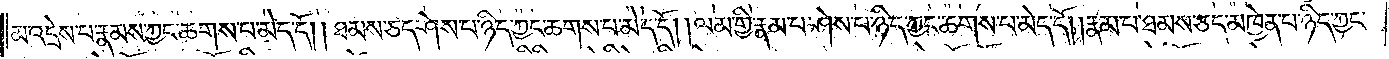མ་འདྲེས་པ་རྣམས་ཀྱང་ཆགས་པ་མེད་དོ། །ཐམས་ཅད་ཤེས་པ་ཉིད་ཀྱང་ཆགས་པ་མེད་དོ། །ལམ་གྱི་རྣམ་པར་ཤེས་པ་ཉིད་ཀྱང་ཆགས་པ་མེད་དོ། །རྣམ་པ་ཐམས་ཅད་མཁྱེན་པ་ཉིད་ཀྱང་
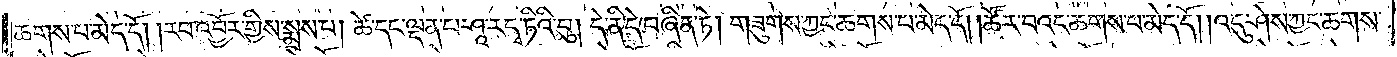ཆགས་པ་མེད་དོ། །རབ་འབྱོར་གྱིས་སྨྲས་པ། ཚེ་དང་ལྡན་པ་ཤཱ་ར་དྭ་ཏིའི་བུ། དེ་ནི་དེ་བཞིན་ཏེ། གཟུགས་ཀྱང་ཆགས་པ་མེད་དོ། །ཚོར་བའང་ཆགས་པ་མེད་དོ། །འདུ་ཤེས་ཀྱང་ཆགས་
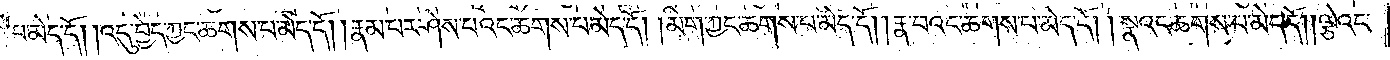པ་མེད་དོ། །འདུ་བྱེད་ཀྱང་ཆགས་པ་མེད་དོ། །རྣམ་པར་ཤེས་པའང་ཆགས་པ་མེད་དོ། །མིག་ཀྱང་ཆགས་པ་མེད་དོ། །རྣ་བའང་ཆགས་པ་མེད་དོ། །སྣའང་ཆགས་པ་མེད་དོ། །ལྕེའང་
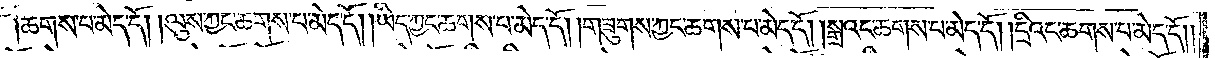ཆགས་པ་མེད་དོ། །ལུས་ཀྱང་ཆགས་པ་མེད་དོ། །ཡིད་ཀྱང་ཆགས་པ་མེད་དོ། །གཟུགས་ཀྱང་ཆགས་པ་མེད་དོ། །སྒྲའང་ཆགས་པ་མེད་དོ། །དྲིའང་ཆགས་པ་མེད་དོ། །
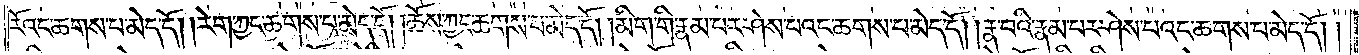རོའང་ཆགས་པ་མེད་དོ། །རེག་ཀྱང་ཆགས་པ་མེད་དོ། །ཆོས་ཀྱང་ཆགས་པ་མེད་དོ། །མིག་གི་རྣམ་པར་ཤེས་པའང་ཆགས་པ་མེད་དོ། །རྣ་བའི་རྣམ་པར་ཤེས་པའང་ཆགས་པ་མེད་དོ། །
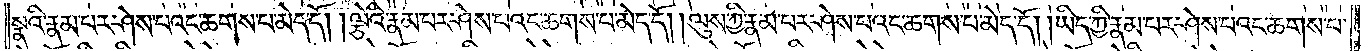སྣའི་རྣམ་པར་ཤེས་པའང་ཆགས་པ་མེད་དོ། །ལྕེའི་རྣམ་པར་ཤེས་པའང་ཆགས་པ་མེད་དོ། །ལུས་ཀྱི་རྣམ་པར་ཤེས་པའང་ཆགས་པ་མེད་དོ། །ཡིད་ཀྱི་རྣམ་པར་ཤེས་པའང་ཆགས་པ་
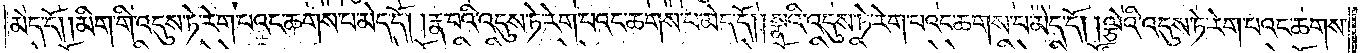མེད་དོ། །མིག་གི་འདུས་ཏེ་རེག་པའང་ཆགས་པ་མེད་དོ། །རྣ་བའི་འདུས་ཏེ་རེག་པའང་ཆགས་པ་མེད་དོ། །སྣའི་འདུས་ཏེ་རེག་པའང་ཆགས་པ་མེད་དོ། །ལྕེའི་འདུས་ཏེ་རེག་པའང་ཆགས་
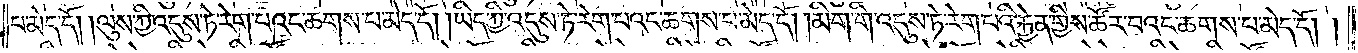པ་མེད་དོ། །ལུས་ཀྱི་འདུས་ཏེ་རེག་པའང་ཆགས་པ་མེད་དོ། །ཡིད་ཀྱི་འདུས་ཏེ་རེག་པའང་ཆགས་པ་མེད་དོ། །མིག་གི་འདུས་ཏེ་རེག་པའི་རྐྱེན་གྱིས་ཚོར་བའང་ཆགས་པ་མེད་དོ། །
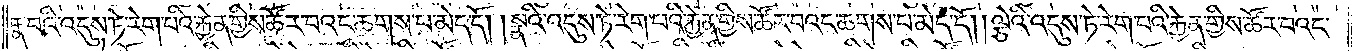རྣ་བའི་འདུས་ཏེ་རེག་པའི་རྐྱེན་གྱིས་ཚོར་བའང་ཆགས་པ་མེད་དོ། །སྣའི་འདུས་ཏེ་རེག་པའི་རྐྱེན་གྱིས་ཚོར་བའང་ཆགས་པ་མེད་དོ། །ལྕེའི་འདུས་ཏེ་རེག་པའི་རྐྱེན་གྱིས་ཚོར་བའང་
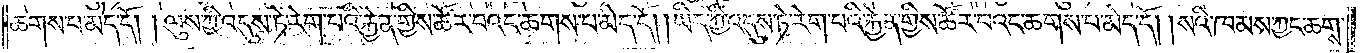ཆགས་པ་མེད་དོ། །ལུས་ཀྱི་འདུས་ཏེ་རེག་པའི་རྐྱེན་གྱིས་ཚོར་བའང་ཆགས་པ་མེད་དོ། །ཡིད་ཀྱི་འདུས་ཏེ་རེག་པའི་རྐྱེན་གྱིས་ཚོར་བའང་ཆགས་པ་མེད་དོ། །སའི་ཁམས་ཀྱང་ཆགས་
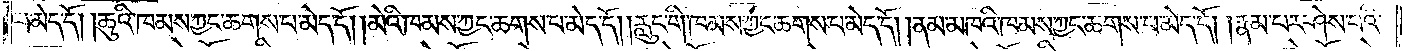པ་མེད་དོ། །ཆུའི་ཁམས་ཀྱང་ཆགས་པ་མེད་དོ། །མེའི་ཁམས་ཀྱང་ཆགས་པ་མེད་དོ། །རླུང་གི་ཁམས་ཀྱང་ཆགས་པ་མེད་དོ། །ནམ་མཁའི་ཁམས་ཀྱང་ཆགས་པ་མེད་དོ། །རྣམ་པར་ཤེས་པའི་
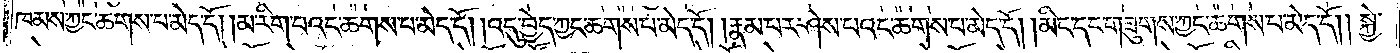ཁམས་ཀྱང་ཆགས་པ་མེད་དོ། །མ་རིག་པའང་ཆགས་པ་མེད་དོ། །འདུ་བྱེད་ཀྱང་ཆགས་པ་མེད་དོ། །རྣམ་པར་ཤེས་པའང་ཆགས་པ་མེད་དོ། །མིང་དང་གཟུགས་ཀྱང་ཆགས་པ་མེད་དོ། །སྐྱེ་
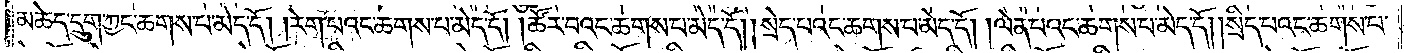མཆེད་དྲུག་ཀྱང་ཆགས་པ་མེད་དོ། །རེག་པའང་ཆགས་པ་མེད་དོ། །ཚོར་བའང་ཆགས་པ་མེད་དོ། །སྲེད་པའང་ཆགས་པ་མེད་དོ། །ལེན་པའང་ཆགས་པ་མེད་དོ། །སྲིད་པའང་ཆགས་པ་
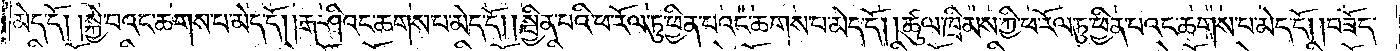མེད་དོ། །སྐྱེ་བའང་ཆགས་པ་མེད་དོ། །རྒ་ཤིའང་ཆགས་པ་མེད་དོ། །སྦྱིན་པའི་ཕ་རོལ་ཏུ་ཕྱིན་པའང་ཆགས་པ་མེད་དོ། །ཚུལ་ཁྲིམས་ཀྱི་ཕ་རོལ་ཏུ་ཕྱིན་པའང་ཆགས་པ་མེད་དོ། །བཟོད་
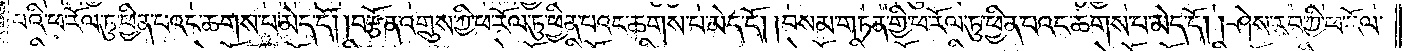པའི་ཕ་རོལ་ཏུ་ཕྱིན་པའང་ཆགས་པ་མེད་དོ། །བརྩོན་འགྲུས་ཀྱི་ཕ་རོལ་ཏུ་ཕྱིན་པའང་ཆགས་པ་མེད་དོ། །བསམ་གཏན་གྱི་ཕ་རོལ་ཏུ་ཕྱིན་པའང་ཆགས་པ་མེད་དོ། །ཤེས་རབ་ཀྱི་ཕ་རོལ་
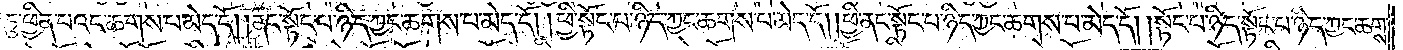ཏུ་ཕྱིན་པའང་ཆགས་པ་མེད་དོ། །ནང་སྟོང་པ་ཉིད་ཀྱང་ཆགས་པ་མེད་དོ། །ཕྱི་སྟོང་པ་ཉིད་ཀྱང་ཆགས་པ་མེད་དོ། །ཕྱི་ནང་སྟོང་པ་ཉིད་ཀྱང་ཆགས་པ་མེད་དོ། །སྟོང་པ་ཉིད་སྟོང་པ་ཉིད་ཀྱང་ཆགས་
